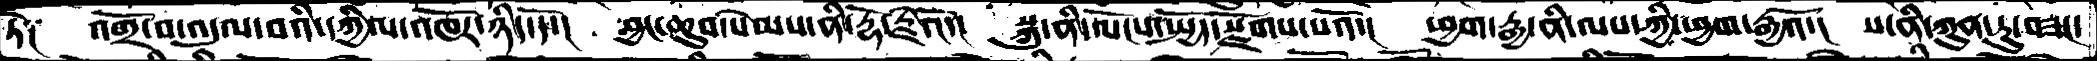ཏེ༑  འགྲོ་བ་འདུལ་བའི་དཀྱིལ་འཁོར་ཉིད་དོ་།  བྱང་ཆུབ་སེམས་ནི་རྡོ་རྗེའོ་།  སྐུ་ནི་ལོངས་སྤྱོད་སྫོགས་པའོ་།  ཕྱག་རྒྱ་ནི་ལས་ཀྱི་ཕྱག་རྒྱའོ་།  ས་ནི་ཀུན་ཏུ་བཟང་
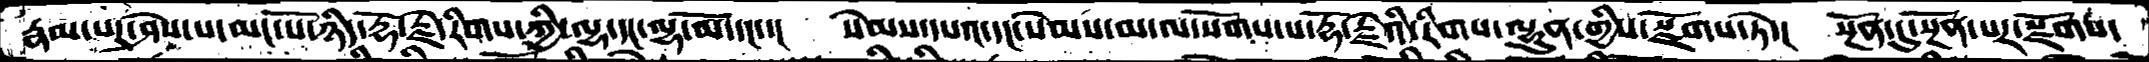རྣམ་པར་ཤེས་པ་མང་པོ་ཉིད་རྡོ་རྗེ་རིགས་ཀྱི་ལྷ་དང་ལྷ་མོ་དང་་།  སེམས་དཔའ་དང་སེམས་མ་ལ་སོགས་་པ་རྡོ་རྗེའི་རིགས་ལྷུན་གྱིས་སྫོགས་ཏེ་།  སྔོན་དུ་སྔོན་པར་སྫོགས་
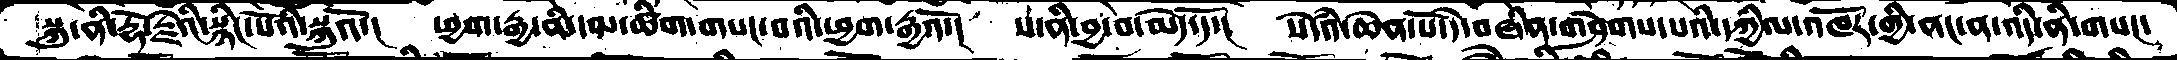སྐུ་ནི་རྡོ་རྗེའི་སྙིང་པོའི་སྐུའོ་།  ཕྱག་རྒྱ་ནི་དམ་ཚིག་གསང་བའི་ཕྱག་རྒྱའོ་།   ས་ནི་བྱ་བ་མེད་དོ་།  སེདཾའ་ཆེན་པོ་དེ་བཞིན་གཤེགས་པའི་དཀྱིལ་འཁོར་གྱི་ནང་ན་འདི་ནི་གསང་
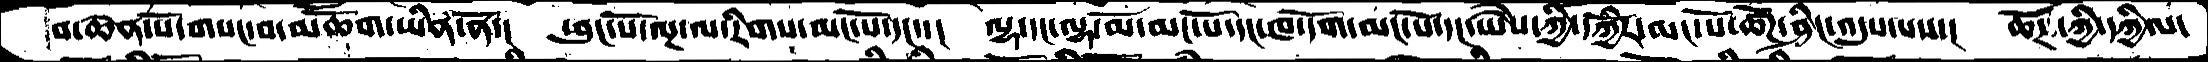བ་ཆེན་པོ་གསང་བ་མཆོག་ཡིན་ནོ་།  ཕུང་པོ་ལྔ་ལ་རིགས་མང་པོ་དང་་།  ལྷ་དང་ལྷ་མོ་མང་པོ་དང་ཁ་དོག་མང་པོ་དང་ཡཻས་ཀྱི་དཀྱོིར་མང་པོ་ཚོཌ་ཤིང་འདུས་པས་།  ཚོཌ་ཀྱི་དཀྱིལ་
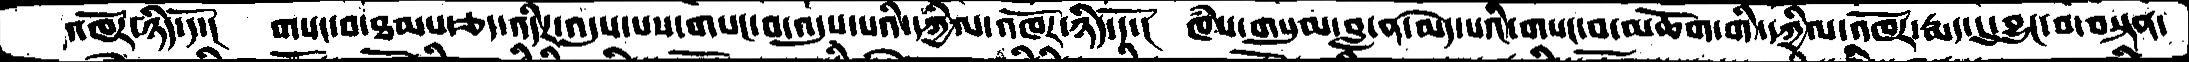འཁོར་ཉིད་དོ་།  གསང་བ་ཐམས་ཅད་འདིར་འདུས་པས་གསང་བ་འདུས་པའི་དཀྱིལ་འཁོར་ཉིད་དོ་།  ཁཾས་གསུམ་བླ་ན་མེད་པའི་གསང་བ་མཆོག་གི་དཀྱིལ་འཁོར་རྨད་དུ་བྱུང་བ་བསྟན་
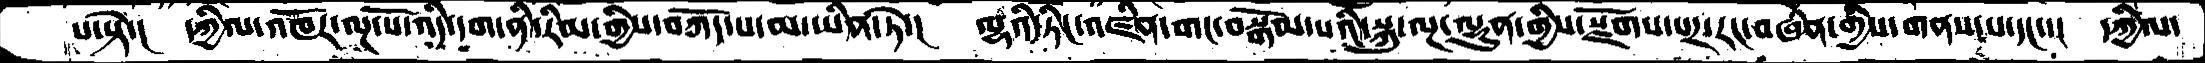པ་སྟེ་།  དཀྱིལ་འཁོར་ལྔ་པོ་འདི་དག་ནི་རིམ་གྱིས་བཀོད་པ་མ་ཡིན་ཏེ་།  ལྷའི་ཏིང་འཛིན་གང་བསྒོམ་པའི་སྐུ་ལྔ་ལྷུན་གྱིས་སྫོགས་པར་རང་བཞིན་གྱིས་གནས་པ་དང་་།  དཀྱིལ་
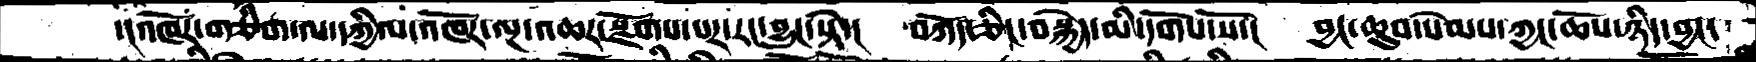་།འཁོར་གཅིག་ལ་དཀྱིལ་འཁོར་ལྔ་འཆར་སྫོགས་པར་རང་བྱུང་སྟེ་།  བཀོད་ཅིང་བསྐྱེད་མི་དགོས་སོ་།  བྱང་ཆུབ་སེམས་ཀྱང་ཆོས་ཉིད་བྱང་
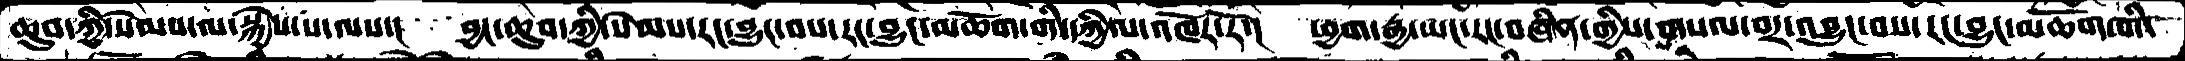ཆུབ་ཀྱི་སེམས་ལ་སྐྱེས་པ་ལས་།  བྱང་ཆུབ་ཀྱི་སེམས་རང་བྱུང་བས་རང་བྱུང་མཆོག་གི་དཀྱིལ་འཁོར་རོ་།  ཕྱག་རྒྱ་ཡང་རང་བཞིན་གྱིས་གསལ་བར་འབྱུང་བས་རང་བྱུང་མཆོག་གི་
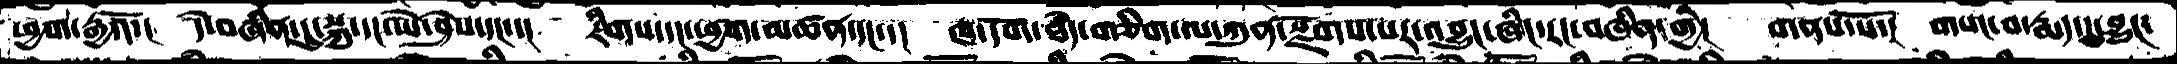ཕྱག་རྒྱའོ་།  དེ་བཞིན་དུ་སྐུ་དང་ཡེ་ཤེས་དང་།  རིགས་དང་ཕྱག་མཚན་དང་།  ཁ་དོག་ཐཾད་གཅིག་ལ་ཀུན་སྫོགས་པར་འབྱུང་ཞིང་རང་བཞིན་གྱི།  གནས་སོ་།  གསང་བ་རྨད་དུ་བྱུང་
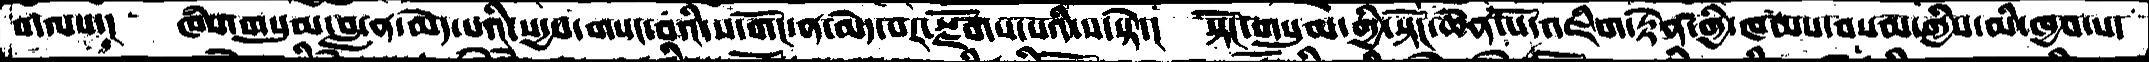བ་ལས་།  ཁཾས་གསུམ་བླ་ན་མེད་པའི་སདྱས་གསང་བའི་ས་གོང་ན་མེད་པར་སྫོགས་པའི་ས་སྟེ་།   སྟོང་གསུམ་གྱི་སྟོང་ཆེན་པོ་འཇིག་རྟེན་གྱི་ཁམས་བསམ་གྱིས་མི་ཁྱབ་པ་
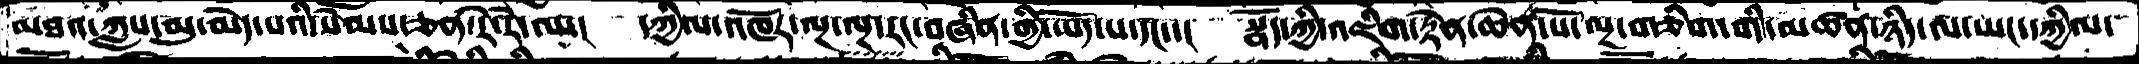མཐའ་ཀླས་མུ་མེད་པའི་སེམས་ཅན་རེ་རེ་ལ་།  དཀྱིལ་འཁོར་ལྔ་ལྔ་རང་བཞིན་གྱི་ཡོད་པ་དང་་།  སྣོད་ཀྱི་འཇིག་རྟེན་ཆེན་པོ་ལྔ་གཅིག་གི་མཚན་ཉིད་ལ་ཡང་དཀྱིལ་
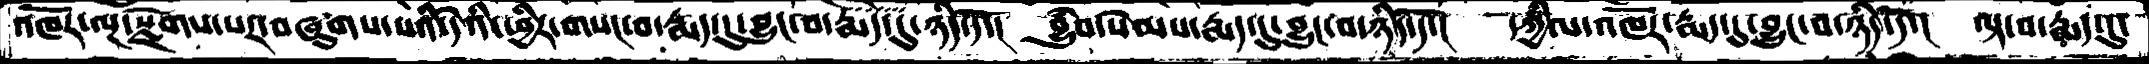འཁོར་ལྔ་སྫོགས་པར་བཞུགས་པའི་དེའི་ཕྱིར་གསང་བ་རྨད་དུ་བྱུང་བ་རྨད་དུ་ཉིད་དོ་།   བྱུཾབ་སེམས་རྨད་དུ་བྱུང་བ་ཉིད་དོ་།  དཀྱིལ་འཁོར་རྨད་དུ་བྱུང་བ་ཉིད་དོ་།  ལྟ་བ་རྨད་དུ་
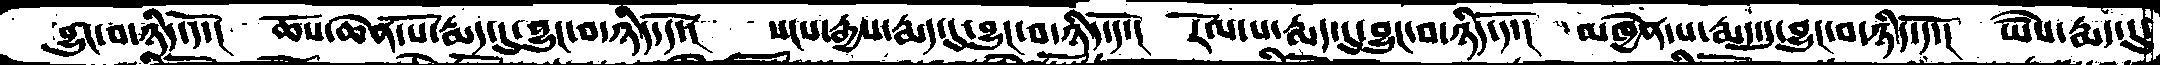བྱུང་བ་ཉིད་དོ་།  ཆོས་ཆེན་པོ་རྨད་དུ་བྱུང་བ་ཉིད་དོ་།  སངས་རྒྱས་རྨད་དུ་བྱུང་བ་ཉིད་དོ་།  རོལ་པ་རྨད་དུ་བྱུང་བ་ཉིད་དོ་།  མཁྱེན་པ་རྨད་དུ་བྱུང་བ་ཉིད་དོ་།  ཡཻས་རྨད་དུ་
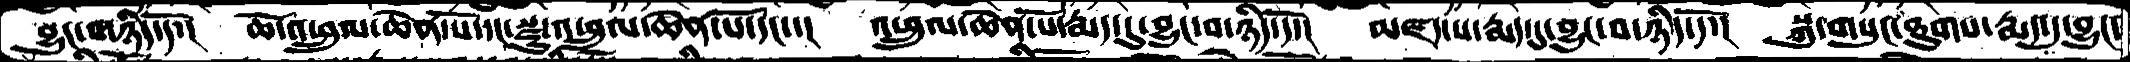བྱུང་གཉིད་དོ་། ཆོོ་འཕྲུལ་ཆེན་པོ་དང་སྫུ་འཕྲུལ་ཆེན་པོ་དང་་། འཕྲུལ་ཆེན་པོ་རྨད་དུ་བྱུང་བ་ཉིད་དོ་། མཛད་པ་རྨད་དུ་བྱུང་བ་ཉིད་དོ་། སྐུ་གསུང་ཐུགས་རྨད་དུ་བྱུང་
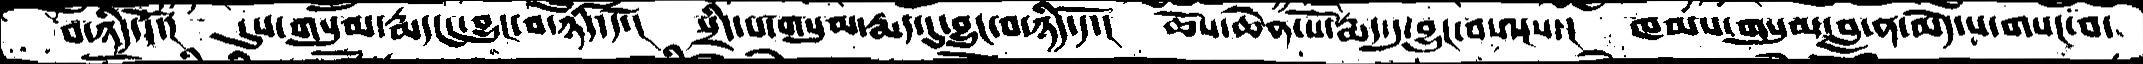བ་ཉིད་དོ་།  དུས་གུསམ་རྨད་དུ་བྱུང་བ་ཉིད་དོ་།  སྲིད་པ་གསུམ་རྨད་དུ་བྱུང་བ་ཉིད་དོ་།  ཆོས་ཆེན་པོ་རྨད་དུ་བྱུང་བ་ལས་།  ཁམས་གསུམ་བླ་ན་མེད་པ་གསང་བ་
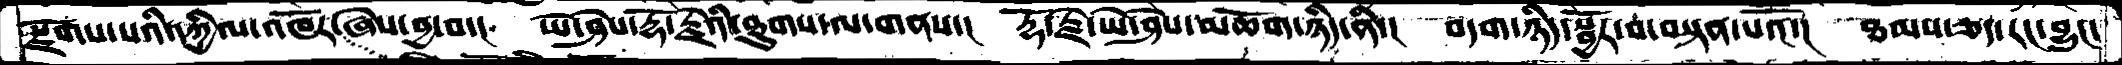སྫོགས་པའི་དཀྱིལ་འཁོར་ཞེས་བྱ་བ་།  ཡེ་ཤེས་རྡོ་རྗེའི་ཐུགས་ལ་གནས་།  རྡོ་རྗེ་ཡེ་ཤེས་མཆོག་ཉིད་ནི་།  བདག་ཉིད་སྦྱོར་བ་བསྟན་པའོ་།  ཐམས་ཅད་རང་བྱུང་
